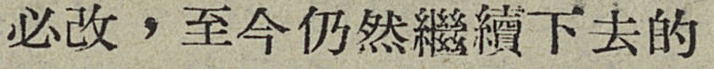必改，至今仍然繼續下去的
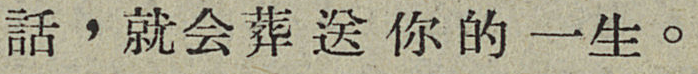話，就会葬送你的一生。
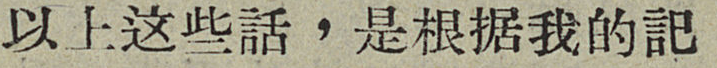以上这些話，是根据我的記
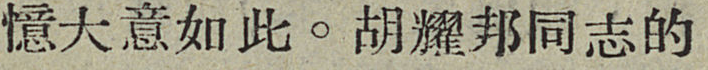憶大意如此。胡耀邦同志的
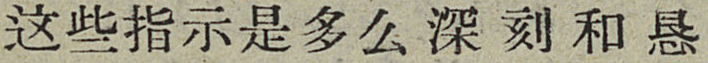这些指示是多么深刻和恳
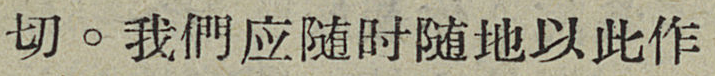切。我們应随时随地以此作
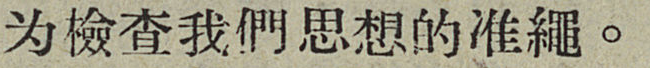为檢查我們思想的准繩。
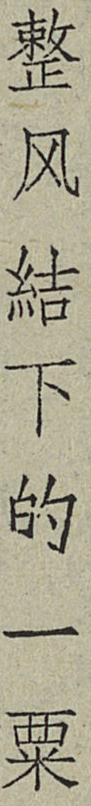整风結下的一粟
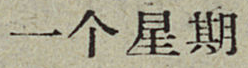一个星期
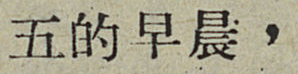五的早晨，
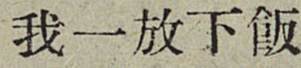我一放下飯
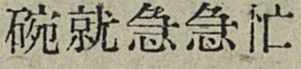碗就急急忙
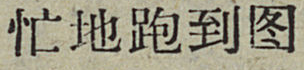忙地跑到图
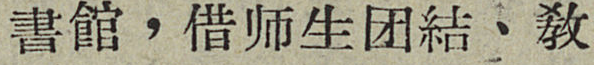書館，借师生团結、敎
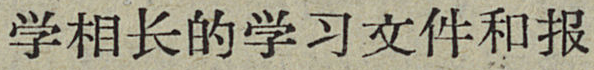学相长的学习文件和报
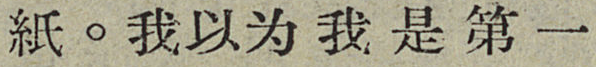紙。我以为我是第一
